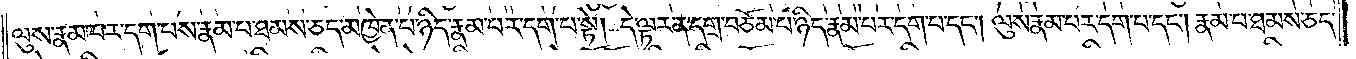ལུས་རྣམ་པར་དག་པས་རྣམ་པ་ཐམས་ཅད་མཁྱེན་པ་ཉིད་རྣམ་པར་དག་པ་སྟེ། དེ་ལྟར་ན་དགྲ་བཅོམ་པ་ཉིད་རྣམ་པར་དག་པ་དང༌། ལུས་རྣམ་པར་དག་པ་དང༌། རྣམ་པ་ཐམས་ཅད་
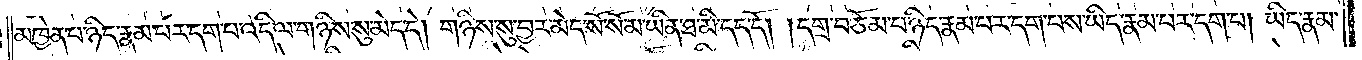མཁྱེན་པ་ཉིད་རྣམ་པར་དག་པ་འདི་ལ་གཉིས་སུ་མེད་དེ། གཉིས་སུ་བྱར་མེད་སོ་སོ་མ་ཡིན་ཐ་མི་དད་དོ། །དགྲ་བཅོམ་པ་ཉིད་རྣམ་པར་དག་པས་ཡིད་རྣམ་པར་དག་པ། ཡིད་རྣམ་
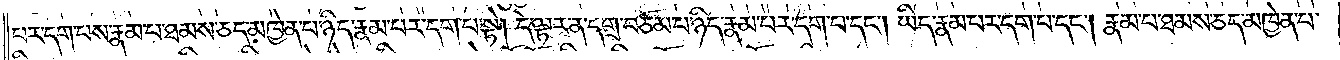པར་དག་པས་རྣམ་པ་ཐམས་ཅད་མཁྱེན་པ་ཉིད་རྣམ་པར་དག་པ་སྟེ། དེ་ལྟར་ན་དགྲ་བཅོམ་པ་ཉིད་རྣམ་པར་དག་པ་དང༌། ཡིད་རྣམ་པར་དག་པ་དང༌། རྣམ་པ་ཐམས་ཅད་མཁྱེན་པ་
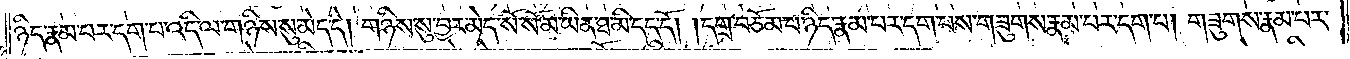ཉིད་རྣམ་པར་དག་པ་འདི་ལ་གཉིས་སུ་མེད་དེ། གཉིས་སུ་བྱར་མེད་སོ་སོ་མ་ཡིན་ཐ་མི་དད་དོ། །དགྲ་བཅོམ་པ་ཉིད་རྣམ་པར་དག་པས་གཟུགས་རྣམ་པར་དག་པ། གཟུགས་རྣམ་པར་
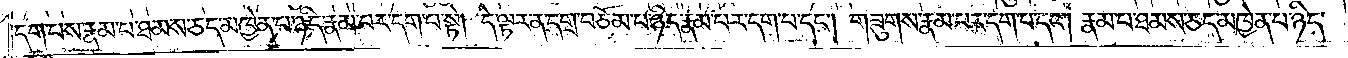དག་པས་རྣམ་པ་ཐམས་ཅད་མཁྱེན་པ་ཉིད་རྣམ་པར་དག་པ་སྟེ། དེ་ལྟར་ན་དགྲ་བཅོམ་པ་ཉིད་རྣམ་པར་དག་པ་དང༌། གཟུགས་རྣམ་པར་དག་པ་དང༌། རྣམ་པ་ཐམས་ཅད་མཁྱེན་པ་ཉིད་
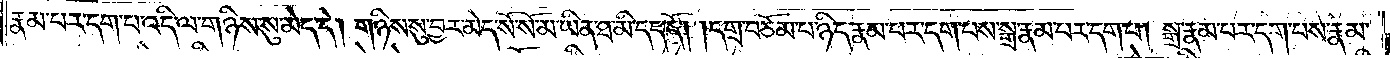རྣམ་པར་དག་པ་འདི་ལ་གཉིས་སུ་མེད་དེ། གཉིས་སུ་བྱར་མེད་སོ་སོ་མ་ཡིན་ཐ་མི་དད་དོ། །དགྲ་བཅོམ་པ་ཉིད་རྣམ་པར་དག་པས་སྒྲ་རྣམ་པར་དག་པ། སྒྲ་རྣམ་པར་དག་པས་རྣམ་
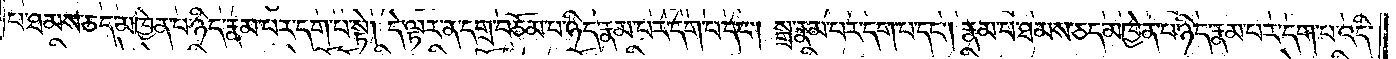པ་ཐམས་ཅད་མཁྱེན་པ་ཉིད་རྣམ་པར་དག་པ་སྟེ། དེ་ལྟར་ན་དགྲ་བཅོམ་པ་ཉིད་རྣམ་པར་དག་པ་དང༌། སྒྲ་རྣམ་པར་དག་པ་དང༌། རྣམ་པ་ཐམས་ཅད་མཁྱེན་པ་ཉིད་རྣམ་པར་དག་པ་འདི་
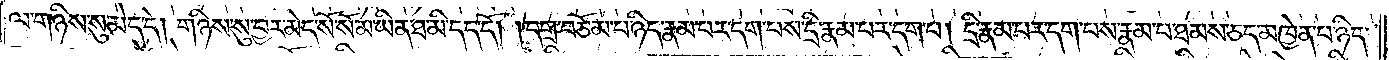ལ་གཉིས་སུ་མེད་དེ། གཉིས་སུ་བྱར་མེད་སོ་སོ་མ་ཡིན་ཐ་མི་དད་དོ། །དགྲ་བཅོམ་པ་ཉིད་རྣམ་པར་དག་པས་དྲི་རྣམ་པར་དག་པ། དྲི་རྣམ་པར་དག་པས་རྣམ་པ་ཐམས་ཅད་མཁྱེན་པ་ཉིད་
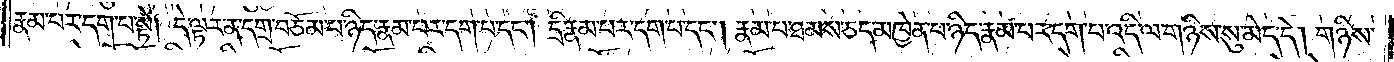རྣམ་པར་དག་པ་སྟེ། དེ་ལྟར་ན་དགྲ་བཅོམ་པ་ཉིད་རྣམ་པར་དག་པ་དང༌། དྲི་རྣམ་པར་དག་པ་དང༌། རྣམ་པ་ཐམས་ཅད་མཁྱེན་པ་ཉིད་རྣམ་པར་དག་པ་འདི་ལ་གཉིས་སུ་མེད་དེ། གཉིས་
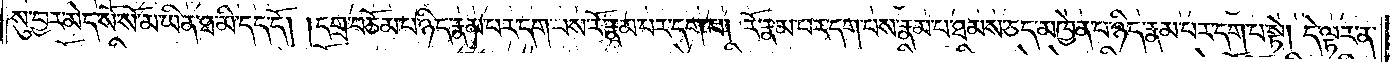སུ་བྱར་མེད་སོ་སོ་མ་ཡིན་ཐ་མི་དད་དོ། །དགྲ་བཅོམ་པ་ཉིད་རྣམ་པར་དག་པས་རོ་རྣམ་པར་དག་པ། རོ་རྣམ་པར་དག་པས་རྣམ་པ་ཐམས་ཅད་མཁྱེན་པ་ཉིད་རྣམ་པར་དག་པ་སྟེ། དེ་ལྟར་ན་
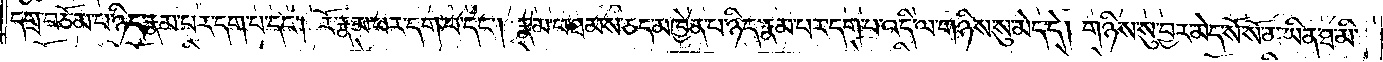དགྲ་བཅོམ་པ་ཉིད་རྣམ་པར་དག་པ་དང༌། རོ་རྣམ་པར་དག་པ་དང༌། རྣམ་པ་ཐམས་ཅད་མཁྱེན་པ་ཉིད་རྣམ་པར་དག་པ་འདི་ལ་གཉིས་སུ་མེད་དེ། གཉིས་སུ་བྱར་མེད་སོ་སོ་མ་ཡིན་ཐ་མི་
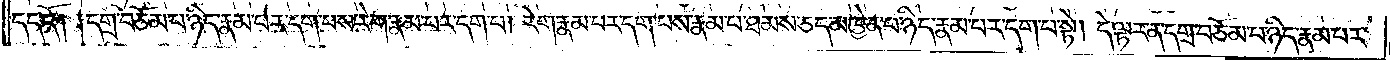དད་དོ། །དགྲ་བཅོམ་པ་ཉིད་རྣམ་པར་དག་པས་རེག་རྣམ་པར་དག་པ། རེག་རྣམ་པར་དག་པས་རྣམ་པ་ཐམས་ཅད་མཁྱེན་པ་ཉིད་རྣམ་པར་དག་པ་སྟེ། དེ་ལྟར་ན་དགྲ་བཅོམ་པ་ཉིད་རྣམ་པར་
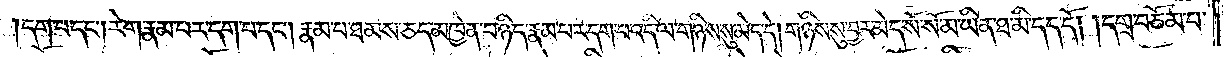དག་པ་དང༌། རེག་རྣམ་པར་དག་པ་དང༌། རྣམ་པ་ཐམས་ཅད་མཁྱེན་པ་ཉིད་རྣམ་པར་དག་པ་འདི་ལ་གཉིས་སུ་མེད་དེ། གཉིས་སུ་བྱར་མེད་སོ་སོ་མ་ཡིན་ཐ་མི་དད་དོ། །དགྲ་བཅོམ་པ་
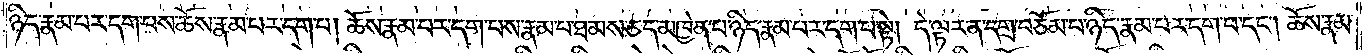ཉིད་རྣམ་པར་དག་པས་ཆོས་རྣམ་པར་དག་པ། ཆོས་རྣམ་པར་དག་པས་རྣམ་པ་ཐམས་ཅད་མཁྱེན་པ་ཉིད་རྣམ་པར་དག་པ་སྟེ། དེ་ལྟར་ན་དགྲ་བཅོམ་པ་ཉིད་རྣམ་པར་དག་པ་དང༌། ཆོས་རྣམ་
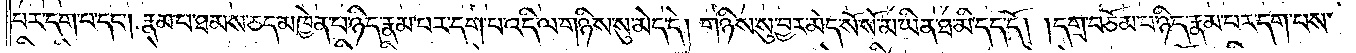པར་དག་པ་དང༌། རྣམ་པ་ཐམས་ཅད་མཁྱེན་པ་ཉིད་རྣམ་པར་དག་པ་འདི་ལ་གཉིས་སུ་མེད་དེ། གཉིས་སུ་བྱར་མེད་སོ་སོ་མ་ཡིན་ཐ་མི་དད་དོ། །དགྲ་བཅོམ་པ་ཉིད་རྣམ་པར་དག་པས་
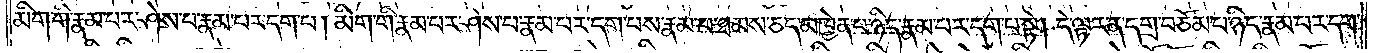མིག་གི་རྣམ་པར་ཤེས་པ་རྣམ་པར་དག་པ། མིག་གི་རྣམ་པར་ཤེས་པ་རྣམ་པར་དག་པས་རྣམ་པ་ཐམས་ཅད་མཁྱེན་པ་ཉིད་རྣམ་པར་དག་པ་སྟེ། དེ་ལྟར་ན་དགྲ་བཅོམ་པ་ཉིད་རྣམ་པར་དག་
